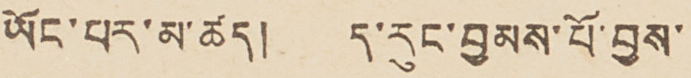ཡོང་པར་མ་ཚད། ད་རུང་བྱམས་པོ་བྱས་
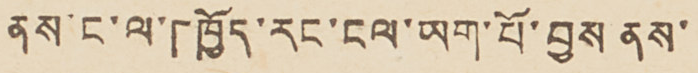ནས་ང་ལ་「ཁྱོད་རང་ངལ་ཡག་པོ་བྱས ནས་
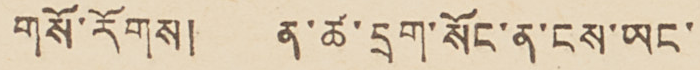གསོ་རོགས། ན་ཚ་དྲག་སོང་ན་ངས་ཡང་
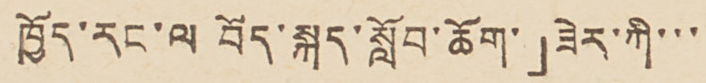ཁྱོད་རང་ལ བོད་སྐད་སློབ་ཆོག་」ཟེར་ཀི་་་
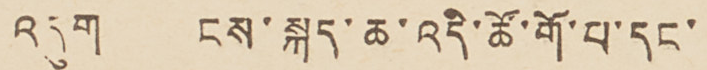འདུག ངས་སྐད་ཆ་འདི་ཚོ་གོ་པ་དང་
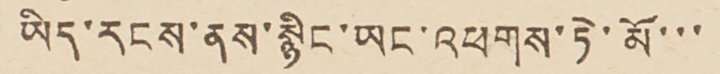ཡིད་རངས་ནས་སྙིང་ཡང་འཕགས་ཏེ་མོ་་་་
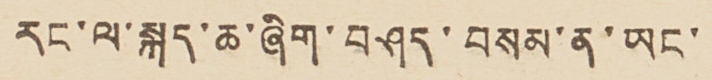རང་ལ་སྐད་ཆ་ཞིག་བཤད་བསམ་ན་ཡང་
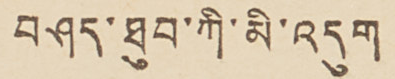བཤད་ཐུབ་ཀི་མི་འདུག
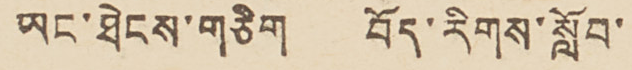ཡང་ཐེངས་གཅིག བོད་རིགས་སློབ་
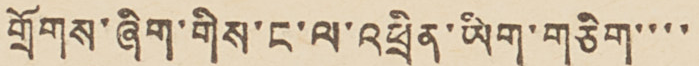གྲོགས་ཞིག་གིས་ང་ལ་འཕྲིན་ཡིག་གཅིག་་་་
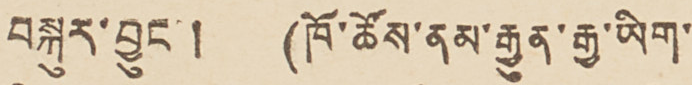བསྐུར་བྱུང་། (ཁོ་ཚོས་ནམ་རྒྱུན་རྒྱ་ཡིག་
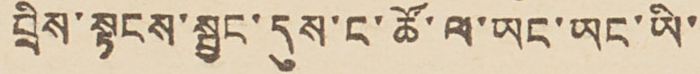བྲིས་སྟངས་སྦྱང་དུས་ང་ཚོ་ལ་ཡང་ཡང་ཡི་
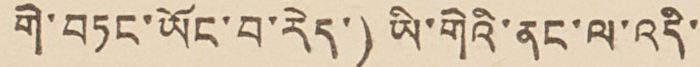གེ་བཏང་ཡོང་བ་རེད་) ཡི་གེའི་ནང་ལ་འདི་
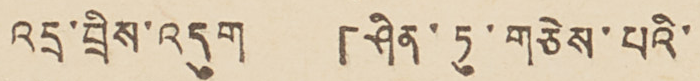འདྲ་བྲིས་འདུག 「ཤིན་ཏུ་གཅེས་པའི་
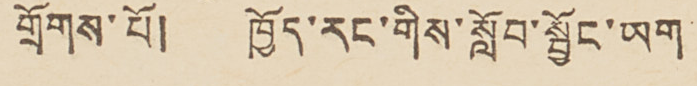གྲོགས་པོ། ཁྱོད་རང་གིས་སློབ་སྦྱོང་ཡག་
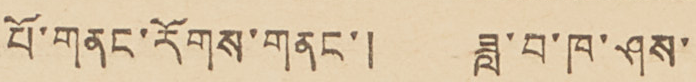པོ་གནང་རོགས་གནང་། ཟླ་བ་ཁ་ཤས་
